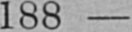188
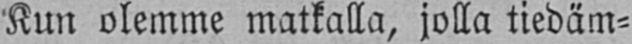Kun olemme matkalla, jolla tiedäm-
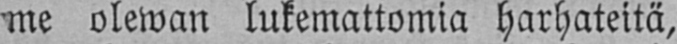me olewan lukemattomia harhateitä,
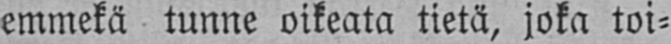emmekä tunne oikeata tietä, joka toi-
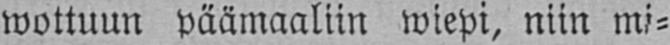wottuun päämaaliin wiepi, niin mi-
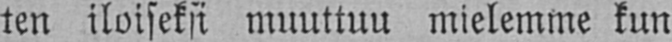ten iloiseksi muuttuu mielemme kun
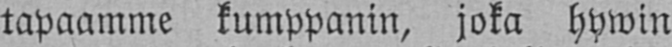tapaamme kumppanin, joka hywin
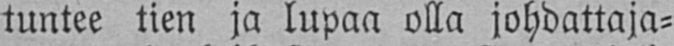tuntee tien ja lupaa olla johdattaja-
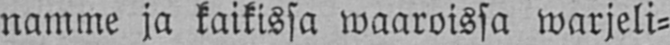namme ja kaikissa waaroissa warjeli-
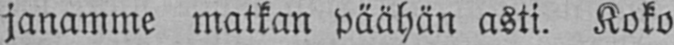janamme matkan päähän asti. Koko
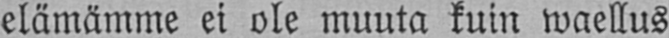elämämme ei ole muuta kuin waellus
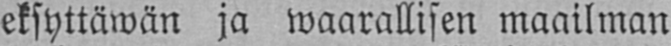eksyttäwän ja waarallisen maailman
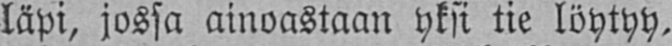läpi, jossa ainoastaan yksi tie löytyy,
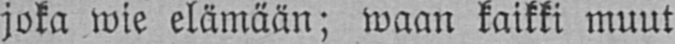joka wie elämään; waan kaikki muut
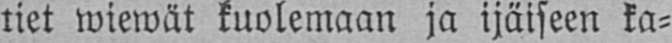tiet wiewät kuolemaan ja ijäiseen ka-
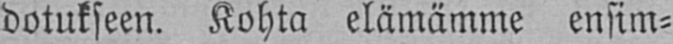dotukseen. Kohta elämämme ensim-
